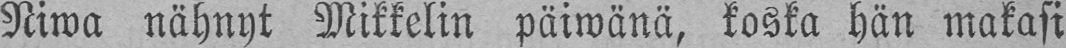Niwa nähnyt Mikkelin päiwänä, koska hän makasi
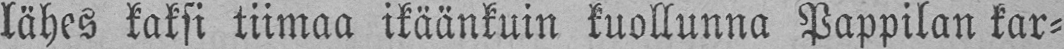lähes kaksi tiimaa ikäänkuin kuollunna Pappilan kar-
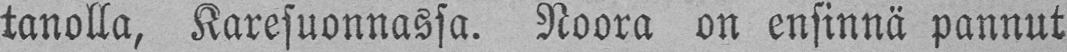tanolla, Karesuonnassa. Noora on ensinnä pannut
